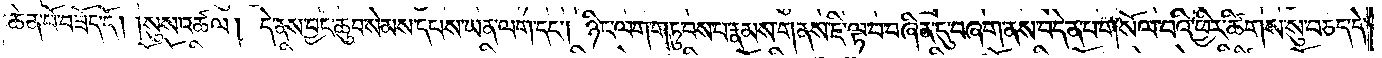ཆེན་པོ་བཟོད་དོ། །སུས་འཚལ། དེ་ནས་བྱང་ཆུབ་སེམས་དཔས་ཡན་ལག་དང༌། ཉིང་ལག་གཏུབས་པ་རྣམས་གནས་ཇི་ལྟ་བ་བཞིན་དུ་བཞག་ནས་བདེན་པ་གསོལ་བའི་ཕྱིར་ཚིགས་སུ་བཅད་དེ་
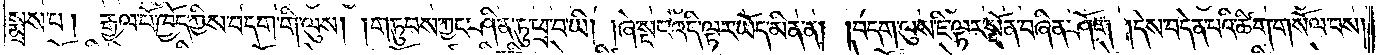སྨྲས་པ། རྒྱལ་པོ་ཁྱོད་ཀྱིས་བདག་གི་ལུས། །གཏུབས་ཀྱང་ཤིན་ཏུ་ཕྲ་བ་ཡི། །ཞེ་སྡང་འདི་ལྟར་ཡོད་མིན་ན། །བདག་ལུས་ཇི་ལྟར་སྔོན་བཞིན་ཤོག །དེས་བདེན་པའི་ཚིག་གསོལ་བས།
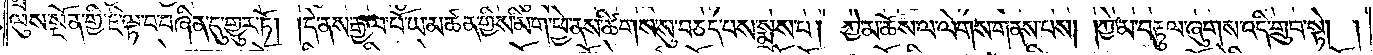ལུས་སྔོན་གྱི་ཇི་ལྟ་བ་བཞིན་དུ་གྱུར་ཏོ། །དེ་ནས་རྒྱལ་པོ་ཡ་མཚན་གྱིས་མིག་ཕྱེ་ནས་ཚིགས་སུ་བཅད་པས་སྨྲས་པ། ཀྱེ་མ་ཆོས་ལ་ལེགས་གནས་པས། །ཀྱེ་མ་བརྟུལ་ཞུགས་འདི་གྲུབ་སྟེ། །
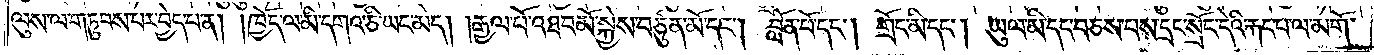ལུས་ལ་གཏུབས་པར་བྱེད་པ་ན། །ཁྱོད་ལ་མི་དགའ་ཅི་ཡང་མེད། །རྒྱལ་པོ་འཐབ་མོ་སྐྱེས་བཙུན་མོ་དང༌། བློན་པོ་དང༌། གྲོང་མི་དང༌། ཡུལ་མི་དང་བཅས་པས་དྲང་སྲོང་དེའི་རྐང་པ་ལ་མགོ་
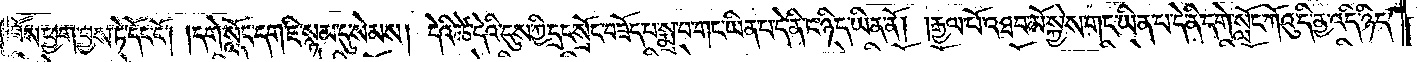པོས་ཕྱག་བྱས་ཏེ་དོང་ངོ༌། །དགེ་སློང་དག་ཇི་སྙམ་དུ་སེམས། དེའི་ཚེ་དེའི་དུས་ཀྱི་དྲང་སྲོང་བཟོད་པ་སྨྲ་བ་གང་ཡིན་པ་དེ་ནི་ང་ཉིད་ཡིན་ནོ། །རྒྱལ་པོ་འཐབ་མོ་སྐྱེས་གང་ཡིན་པ་དེ་ནི་དགེ་སློང་ཀོའུ་དི་ནྱ་འདི་ཉིད་
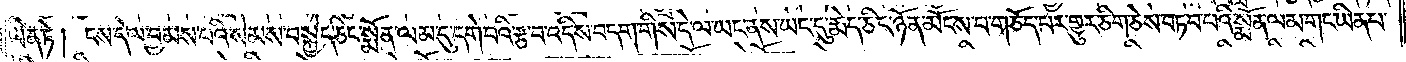ཡིན་ཏེ། ངས་དེ་ལ་བྱམས་པའི་སེམས་བསྐྱེད་ཅིང་སྨོན་ལམ་དུ་དགེ་བའི་རྩ་བ་འདིས་བདག་གིས་དེ་ལ་ཡང་ནས་ཡང་དུ་རྨེད་ཅིང་ཉོན་མོངས་པ་གཅོད་པར་གྱུར་ཅིག་ཅེས་བཏབ་པའི་སྨོན་ལམ་གང་ཡིན་པ་
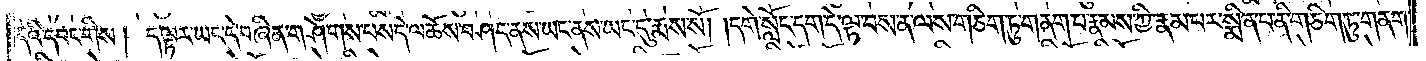དེའི་དབང་གིས། ད་ལྟར་ཡང་དེ་བཞིན་གཤེགས་པས་དེ་ལ་ཆོས་བཤད་ནས་ཡང་ནས་ཡང་དུ་རྨས་སོ། །དགེ་སློང་དག་དེ་ལྟ་བས་ན་ལས་གཅིག་ཏུ་གནག་པ་རྣམས་ཀྱི་རྣམ་པར་སྨིན་པ་ནི་གཅིག་ཏུ་གནག་
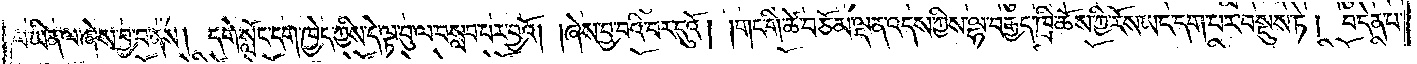པ་ཡིན་ལ་ཞེས་བྱ་བ་ནས། དགེ་སློང་དག་ཁྱེད་ཀྱིས་དེ་ལྟ་བུ་ལ་བསླབ་པར་བྱའོ། །ཞེས་བྱ་བའི་བར་དུའོ། །གང་གི་ཚེ་བཅོམ་ལྡན་འདས་ཀྱིས་ལྷ་བརྒྱད་ཁྲི་ཆོས་ཀྱི་རོས་ཡང་དག་པར་བསྡུས་ཏེ། བདེན་པ་
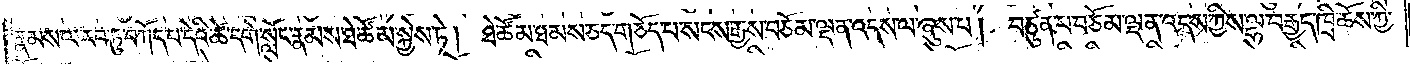རྣམས་ལ་རབ་ཏུ་བཀོད་པ་དེའི་ཚེ་དགེ་སློང་རྣམས་ཐེ་ཚོམ་སྐྱེས་ཏེ། ཐེ་ཚོམ་ཐམས་ཅད་གཅོད་པ་སངས་རྒྱས་བཅོམ་ལྡན་འདས་ལ་ཞུས་པ། བཙུན་པ་བཅོམ་ལྡན་འདས་ཀྱིས་ལྷ་བརྒྱད་ཁྲི་ཆོས་ཀྱི་
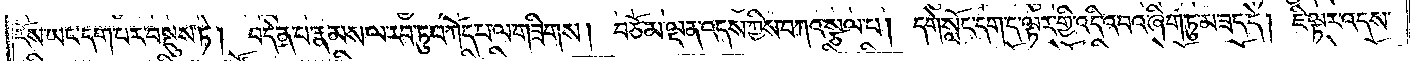རོས་ཡང་དག་པར་བསྡུས་ཏེ། བདེན་པ་རྣམས་ལ་རབ་ཏུ་བཀོད་པ་ལ་གཟིགས། བཅོམ་ལྡན་འདས་ཀྱིས་བཀའ་སྩལ་པ། དགེ་སློང་དག་ད་ལྟར་གྱི་འདི་འབའ་ཞིག་ཏུ་མ་ཟད་དེ། ཇི་ལྟར་འདས་
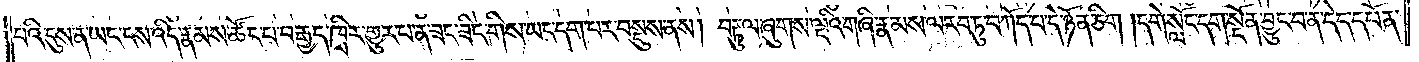པའི་དུས་ན་ཡང་ངས་འདི་རྣམས་ཚོང་པ་བརྒྱད་ཁྲིར་གྱུར་པ་ན་ཟང་ཟིང་གིས་ཡང་དག་པར་བསྡུས་ནས། བརྟུལ་ཞུགས་ལྔའི་གཞི་རྣམས་ལ་རབ་ཏུ་བཀོད་པ་དེ་ཉོན་ཅིག །དགེ་སློང་དག་སྔོན་བྱུང་བ་ན་དེད་དཔོན་
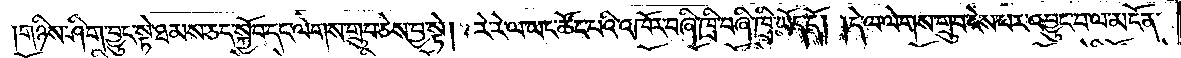གཉིས་ཤིག་བྱུང་སྟེ་ཐམས་ཅད་སྐྱོབ་དང་ལེགས་གྲུབ་ཅེས་བྱ་སྟེ། རེ་རེ་ལ་ཡང་ཚོང་པའི་འཁོར་བཞི་ཁྲི་བཞི་ཁྲི་ཡོད་དོ། །དེ་ལ་ལེགས་གྲུབ་ངེས་པར་འབྱུང་བ་ལ་མངོན་
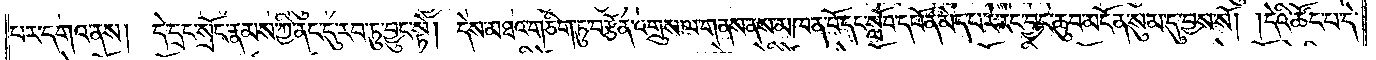པར་དགའ་ནས། དེ་དྲང་སྲོང་རྣམས་ཀྱི་ནང་དུ་རབ་ཏུ་བྱུང་སྟེ། དེས་མཐའ་གཅིག་ཏུ་བརྩོན་འགྲུས་ལ་གནས་ནས་མཁན་པོ་དང་སློབ་དཔོན་མེད་པར་རང་བྱང་ཆུབ་མངོན་སུམ་དུ་བྱས་སོ། །དེའི་ཚོང་པ་དེ་
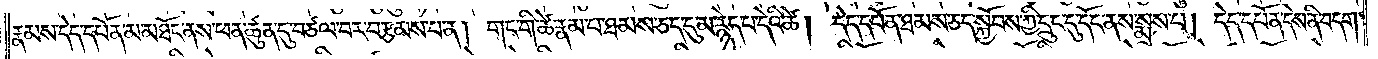རྣམས་དེད་དཔོན་མ་མཐོང་ནས་ཕན་ཚུན་དུ་བཙལ་བར་བརྩམས་པ་ན། གང་གི་ཚེ་རྣམ་པ་ཐམས་ཅད་དུ་མ་རྙེད་པ་དེའི་ཚེ། དེད་དཔོན་ཐམས་ཅད་སྐྱོབས་ཀྱི་དྲུང་དུ་དོང་ནས་སྨྲས་པ། དེད་དཔོན་དེས་ནི་བདག་
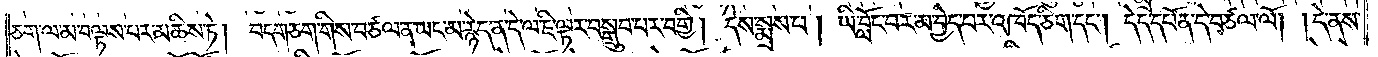ཅག་ལ་མ་བལྟས་པར་མཆིས་ཏེ། བདག་ཅག་གིས་བཙལ་ན་ཡང་མ་རྙེད་ན་དེ་ལ་ཇི་ལྟར་བསྒྲུབ་པར་བགྱི། དེས་སྨྲས་པ། ཡི་བློང་བར་མ་བྱེད་པར་འཁོད་ཅིག་དང༌། དེད་དཔོན་དེ་བཙལ་ལོ། །དེ་ནས་
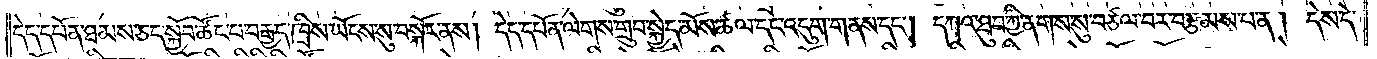དེད་དཔོན་ཐམས་ཅད་སྐྱོབ་ཚོང་པ་བརྒྱད་ཁྲིས་ཡོངས་སུ་བསྐོར་ནས། དེད་དཔོན་ལེགས་གྲུབ་སྐྱེད་མོས་ཚལ་དང་འདུག་གནས་དང༌། དཀའ་ཐུབ་ཀྱི་ནགས་སུ་བཙལ་བར་བརྩམས་པ་ན། དེས་དེ་
